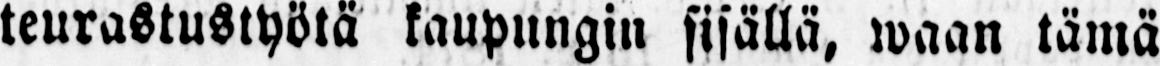teurastustyötä kaupungin sisällä, waan tämä
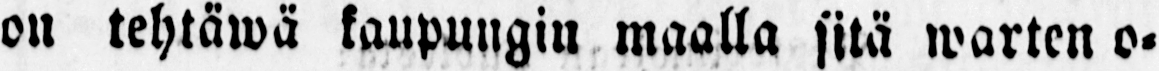on tehtäwä kaupungin maalla sitä warten o-
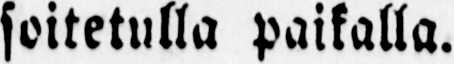soitetulla paikalla.
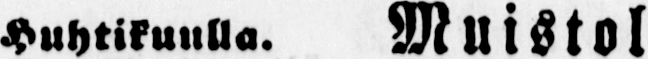Huhtikuulla. Muistolista.
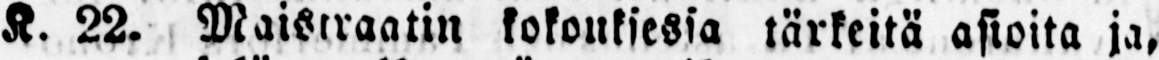K. 22. Maistraatin kokouksessa tärkeitä asioita ja,
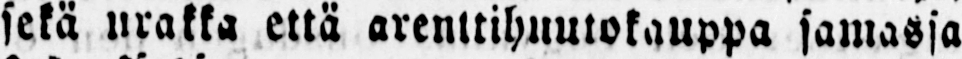sekä urakka että arenttihuutokauppa samassa
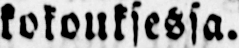kokouksessa.
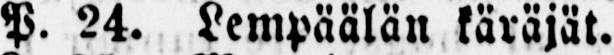P. 24. Lempäälän käräjät.
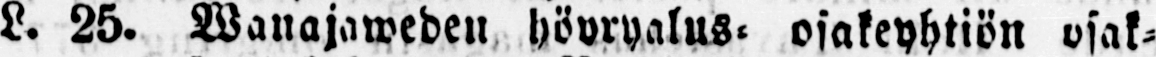L. 25. Wanajaweden höyryalus- osakeyhtiön osa-
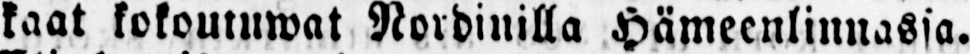kaat kokoutwat Nordinilla Hämeenlinnassa.
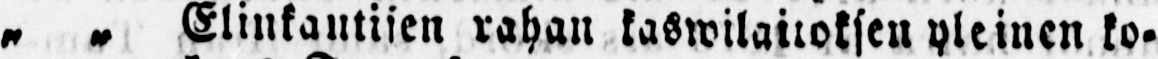˶ ˶ Elinkautisen rahan kaswilaitoksen yleinen ko-
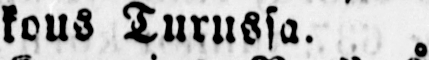kous Turussa. .
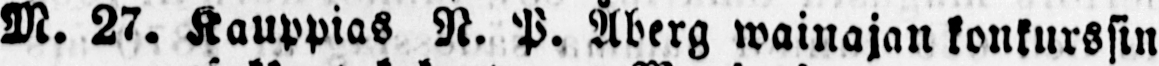M. 27. Kauppias N. P. Åberg wainajan konkurssin
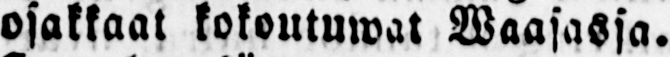osakkaat kokoutuwat Waasassa.
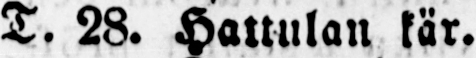T. 28. Hattulan kär.
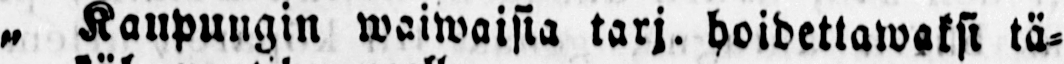„ ˶ Kaupungin waiwaisia tarj. hoidettawaksi tä-
